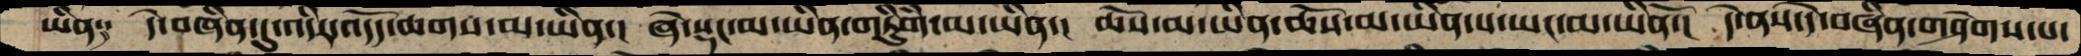ཡིན༑   དེ་བཞིན་དུ་འདིར་འདོད་ཆགས་མ་ཡིན་།   ཞེ་སྡང་མ་ཡིན་གཏིུགཾ་མ་ཡིན་།  ཆོས་མ་ཡིན་ཆོས་མ་ཡིན་པ་ཡང་མ་ཡིནོ་།  དེ་ནས་དེ་བཞིན་གཤེགས་པ་
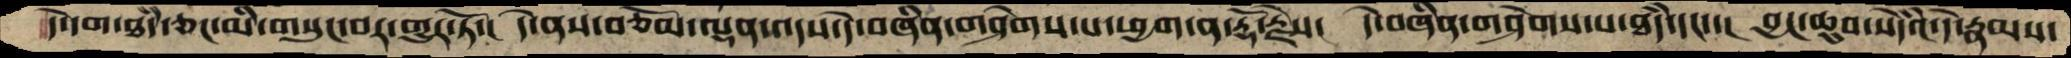དེ་དག་ཐཾད་ཅང་མི་གསུང་བར་གྱུར་ཏོ་།  དེ་ནས་བཅོམ་ལྡན་འདས་དེ་བཞིན་གཤེགས་པ་ཕྱག་ན་རྡོ་རྗེས་།  དེ་བཞིན་གཤེགས་པ་ཐཾད་དང་་།  བྱང་ཆུབ་སེདཾའ་དེ་རྣམས་
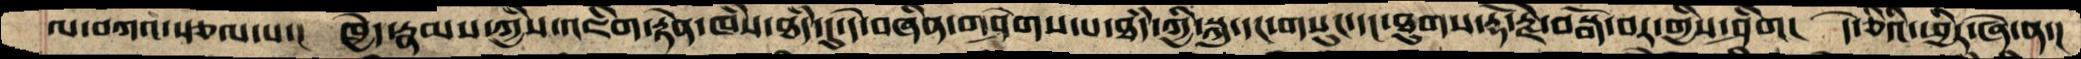ལ་བཀའ་སྩལ་པ་།  ཁྱེད་རྣམས་ཀྱིས་འཇིག་རྟེན་ཁཾས་ཐཾད་དུ་དེ་བཞིན་གཤེགས་པ་ཐཾད་ཀྱི་སྐུ་དང་གསུང་དང་ཐུགས་རྡོ་རྗེ་བསྒོ་བར་གྱིས་ཤིག།  དེ་ཅིའི་ཕྱིར་ཞེ་ན་།
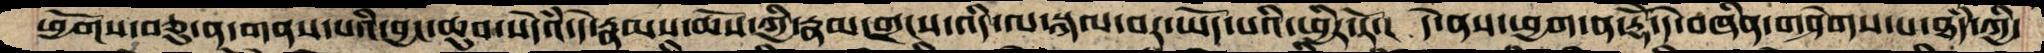ཕྱོགས་བཅུ་ན་གནས་པའི་བྱང་ཆུབ་སེདཾའ་དེ་རྣམས་ཆོས་ཀྱི་རྣམ་གྲངས་འདི་ལ་སྐལ་བར་ཡོད་པའི་ཕྱིར་རོ་།    དེ་ནས་ཕྱག་ན་རྡོེ་དེ་བཞིན་གཤེགས་པ་ཐཾད་ཀྱི་
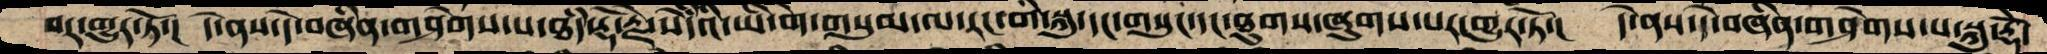བར་གྱུར་ཏོ་།  དེ་ནས་དེ་བཞིན་གཤེགས་པ་ཐདཾ་རྡོ་རྗེ་སེདཾའི་ཡི་གེ་གསུམ་ལ་རང་གི་སྐུ་དང་གསུང་དང་ཐུགས་ཞུགས་པར་གྱུར་ཏོ་།  དེ་ནས་དེ་བཞིན་གཤེགས་པ་སྐུ་རྡོེ་
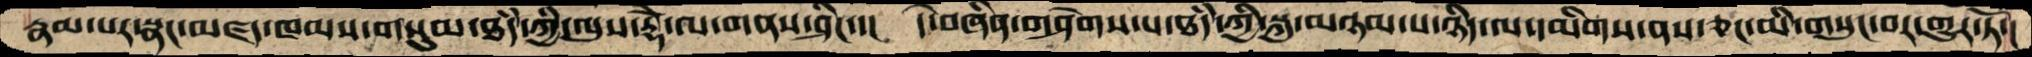རྣམ་པར་སྣང་མཛད་ཁམས་གསུམ་ཐདཾ་ཀྱི་ལུས་རྡོེ་ལ་གནས་ཤིང་་།  དེ་བཞིན་གཤེགས་པ་ཐདཾ་ཀྱི་སྐུ་མཉམ་པ་ཉིད་ལ་དམིགས་ནས་ཅང་མི་གསུང་བར་གྱུར་ཏོ་།
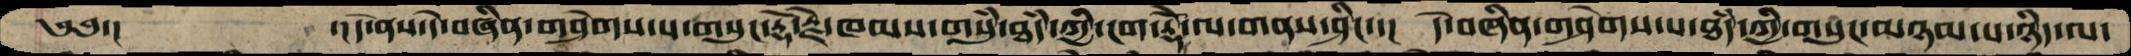༄༅་།     ་།དེ་ནས་དེ་བཞིན་གཤེགས་པ་གསུང་རྡོ་རྗེ་ཁམས་གསུཾ་ཐདཾ་ཀྱི་ངག་རྡོེ་ལ་གནས་ཤིང་་།  དེ་བཞིན་གཤེགས་པ་ཐདཾ་ཀྱི་གསུང་མཉམ་པ་ཉིད་ལ་
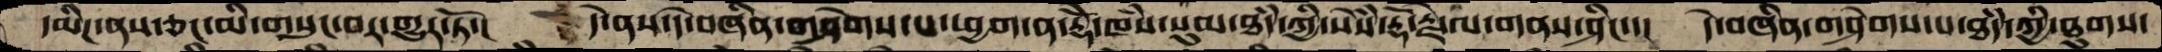དམིཌ་ནས་ཅང་མི་གསུང་བར་གྱུར་ཏོ་།  དེ་ནས་དེ་བཞིན་གཤེགས་པ་ཕྱག་ན་རྡོེ་ཁཾས་སུམ་ཐདཾ་ཀྱི་རྡོ་རྗེ་ལ་གནས་ཤིང་་།  དེ་བཞིན་གཤེགས་པ་ཐདཾ་ཀྱི་ཐུགས་
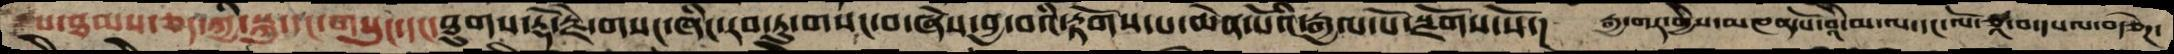པ་ཐམས་ཅད་ཀྱི་སྐུ་དང་གསུང་དང་ཐུགས་རྡོ་རྗེ་གསང་ཞིང་རབ་ཏུ་གསང་བ་ཞེས་བྱ་བའི་རྟོགས་པ་ཆེན་པོའི་རྒྱལ་པོ་སྫོགས་སོ་།   རྒྱ་གར་གྱིས་མཁན་པོ་བཱི་མ་ལ་དང་ལོ་ཙཱ་བ་དཔལ་བརྩེཌ་
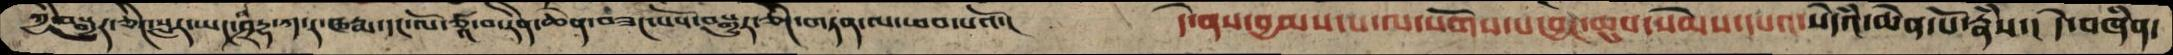ཀྱི་བསྒྱུར་ཅིང་སླར་ཡང་ཤྲི་དྷ་ཀ་ར་ཝརྨ་ལོ་ཙཱ་བ་རིན་ཆེན་བཟང་པོས་བསྒྱུར་ཅིང་གཏན་ལ་ཕབ་པའོ་།   དེ་ནས་བྱམས་པ་ལ་སོགས་པ་བྱང་ཆུབ་སེམས་དཔའ་སེདཾའ་ཆེན་པོ་རྣཾས་།  དེ་བཞིན་
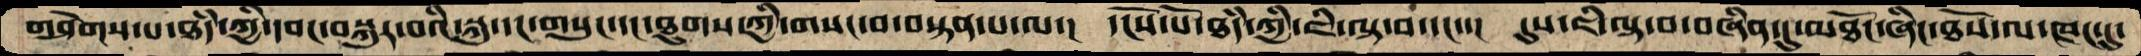གཤེགས་པ་ཐདཾ་ཀྱི་དབང་བསྐུར་བའི་སྐུ་དང་གསུང་དང་ཐུགས་ཀྱི་གསང་བ་བསྟན་པ་ལ་།  དངོས་པོ་ཐདཾ་ཀྱི་ཇི་ལྟ་བ་དང་་།  དུས་ཇི་ལྟ་བ་བཞིན་དུ་མཐོང་ཞིང་ཐོས་ལ་ཁང་དུ་
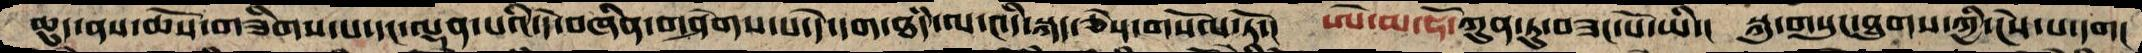ཆུད་ནས་ཆོས་གཟིགས་པ་དང་ལྡན་པའི་དེ་བཞིན་གཤེགས་པ་དེ་དག་ཐཾད་ལ་འདི་སྐད་ཅེས་གསོལ་ཏོ་།  ཨེ་མ་ཧོ་ཀུན་ཏུ་བཟང་པོ་ཡི་།  སྐུ་གསུང་ཐུགས་ཀྱི་ངེས་པ་དག།
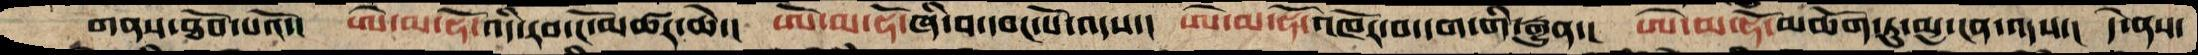གནས་ཐོབ་པའོ་།  ཨེ་མ་ཧོ་འདི་རབ་ངོ་མཚར་ཆེ་།   ཨེ་མ་ཧོ་ཞི་བ་དབང་པོ་འདས་།  ཨེ་མ་ཧོ་འཁོར་བ་དག་གི་རྒྱུན་།  ཨེ་མ་ཧོ་མཆོག་ཏུ་མྱ་ངན་འདས་།  དེ་ནས་
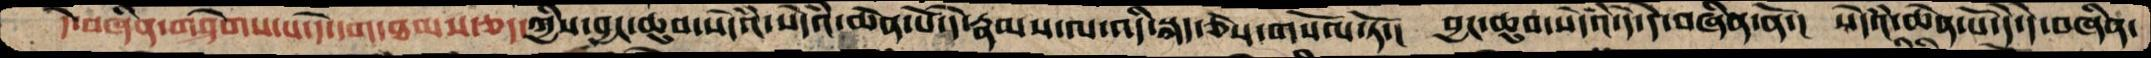དེ་བཞིན་གཤེགས་པ་དེ་དག་ཐམས་ཅད་ཀྱིས་བྱང་ཆུབ་སེདཾའ་སེདཾའ་ཆེན་པོ་དེ་རྣམས་ལ་འདི་སྐད་ཅེས་གསོལ་ཏོ་།  བྱང་ཆུབ་སེདཾའ་དེ་དེ་བཞིན་ནོ་།  སེདཾའ་ཆེན་པོ་དེ་དེ་བཞིན་
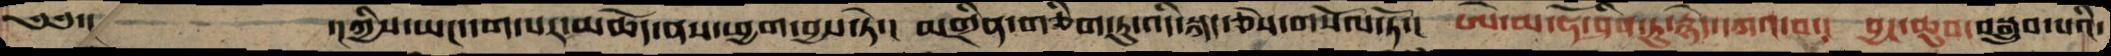༄༅་།    ་།ཀྱིས་ཡང་དག་པར་མཆོད་ནས་ཕྱག་བྱས་ཏེ་།  མགྲིན་གཅིག་ཏུ་འདི་སྐད་ཅེས་གསོལ་ཏོ་།  ཨེ་མ་ཧོ་ཤིན་ཏུ་རྙེད་དཀའ་བ་།  བྱང་ཆུབ་བསྒྲུབ་པའི་
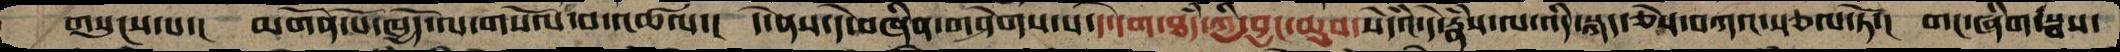གསུངས་པ་།  མགོན་པོ་ཁྱོད་ལ་གསོལ་བ་འཚལ་།  དེ་ནས་དེ་བཞིན་གཤེགས་པ་དེ་དག་ཐདཾ་ཀྱི་བྱང་ཆུབ་སེདཾའ་དེ་རྣཾས་ལ་འདི་སྐད་ཅེས་བཀའ་སྩལ་ཏོ་།  གང་ཞིག་སྦས་
